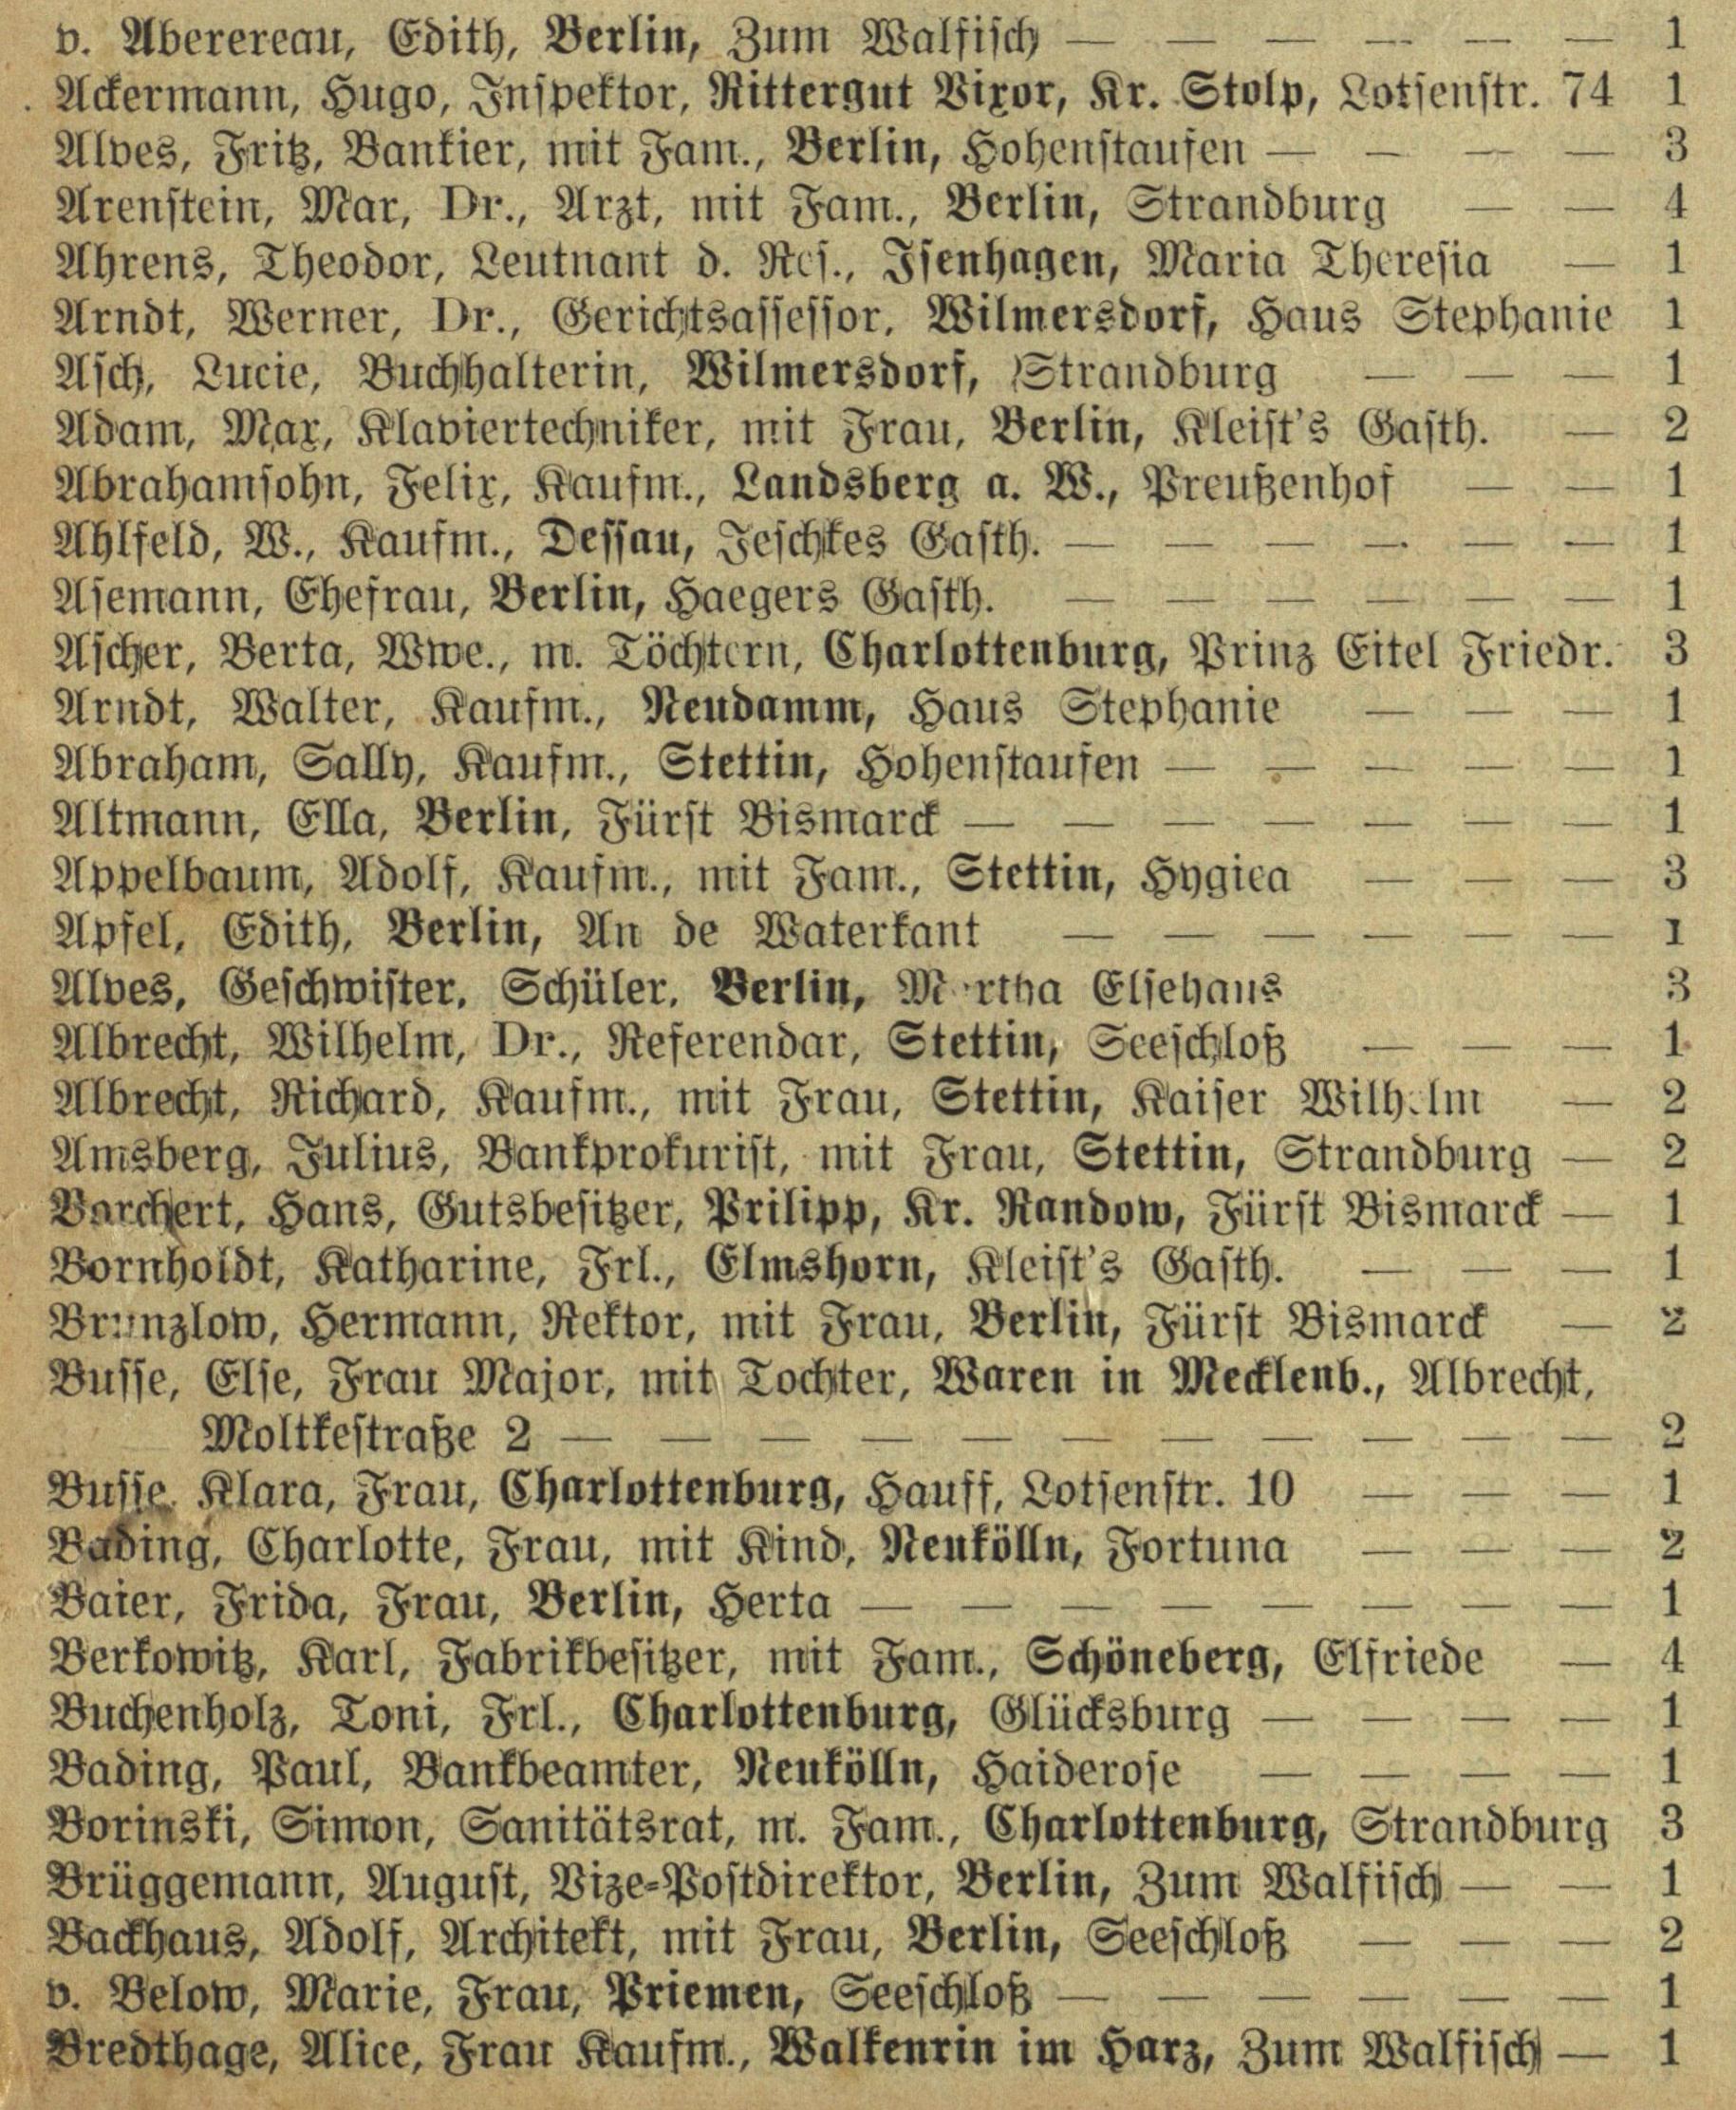v. Aberereau, Edith, Berlin, Zum Walfisch | 1
Achermann, Hugo, Inspektor, Rittergut Vixor, Kr. Stolp, Lotsenstr. 74 | 1
Anves, Fritz, Bankier, mit Fam., Berlin, Hohenstaufen | 3
Arenstein, Mar, Dr., Arzt, mit Fam., Berlin, Strandburg | 4
Ahrens, Theodor, Leutnant d. Res., Isenhagen, Maria Theresia | 1
Arndt, Werner, Dr., Gerichtsassessor, Wilmersdorf, Haus Stephanie | 1
Asch, Lucie, Buchhalterin, Wilmersdorf, Strandburg | 1
Adam, Max, Klaviertechniker, mit Frau, Berlin, Kleist's Gasth. | 2
Abrahamsohn, Felix, Kaufm., Landsberh a. W., Preußenhof | 1
Ahlfeld, w., Kaufm., Dessau, Jeschkes Gasth. | 1
Asemann, Ehefrau, Berlin, Haegers Gasth. | 1
Ascher, Berta, Wwe., m. Töchtern, Charlottenburg, Prinz Eitel Friedr. | 3
Arndt, Walter, Kaufm., Neudamm, Haus Stephanie | 1
Abraham, Sally, Kaufm., Stettin, Hohenstaufen | 1
Altmann, Ella, Berlin, Fürst Bismarck | 1
Appelbaum, Adolf, Kaufm., mit Fam., Stettin, Hygiea | 3
Apfel, Edith, Berlin, An de Waterkant | 1
Alves, Geschwister, Schüler, Berlin, M rtha Elsehus | 3
Albrecht, Wilhelm, Dr., Referendar, Stettin, Seeschloß | 1
Albrecht, Richard, Kaufm., mit Frau, Stettin, Kaiser Wilhelm | 2
Amsberg, Julius, Bankprokurist, mit Frau, Stettin, Strandburg | 2
Barchert, Hans, Gutsbesitzer, Prilipp, Kr. Randow, Fürst Bismarck | 1
Bornholdt, Katharine, Frl., Elmshorn, Kleist's Gasth. | 1
Brunzlow, Hermann, Rektor, mit Frau, Berlin, Fürst Bismarck | 2
Busse, Else, Frau Major, mit Tochter, Waren in Meckenb., Albrecht,
Molkestraße 2 | 2
Busse, Klara, Frau, Charlottenburg, Hauff, Lotsenstr. 10 | 1
Bading, Charlotte, Frau, mit Kind, Neukölln, Fortuna | 2
Baier, Frida, Frau, Berlin, Herta | 1
Berkowitz, Karl, Fabrikbesitzer, mit Fam., Schöneberg, Elfriese | 4
Buchenholz, Toni, Frl., Charlottenburg, Glücksburg | 1
Bading, Paul, Bankbeamter, Neukölln, Haiderose | 1
Borinski, Simon, Sanitätsrat, m. Fam., Charlottenburg, Strandburg | 3
Brüggemann, August, Vize=Postdirektor, Berlin, Zum Walfisch | 1
Backhaus, Adolf, Architekt, mit Frau, Berlin, Seeschloß | 2
v. Below, Marie, Frau, Priemen, Seeschloß | 1
Bredthage, Alice, Frau Kaufm., Walkenrin im Harz, Zum Walfisch | 1
